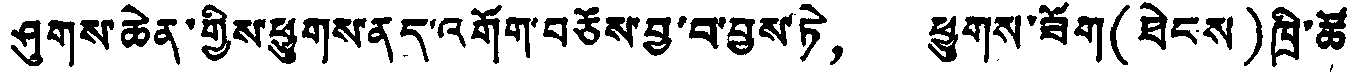ཤུགས་ཆེན་གྱིས་ཕྱུགས་ནད་འགོག་བཅོས་བྱ་བ་བྱས་ཏེ， ཕྱུགས་ཟོག (ཐེངས) ཁྲི་ཚོ་
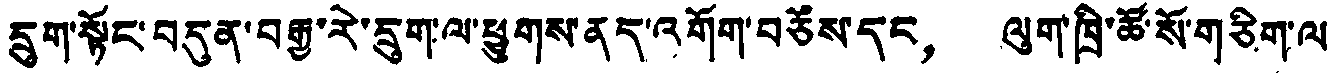དྲུག་སྟོང་བདུན་བརྒྱ་རེ་དྲུག་ལ་ཕྱུགས་ནད་འགོག་བཅོས་དང， ལུག་ཁྲི་ཚོ་སོ་གཅིག་ལ་
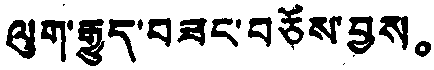ལུག་རྒྱུད་བཟང་བཅོས་བྱས。
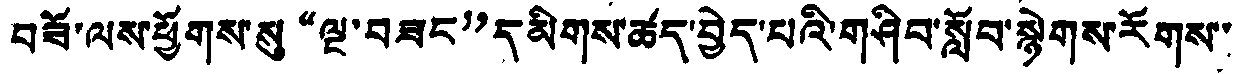བཟོ་ལས་ཕྱོགས་སུ“ལྔ་བཟང”དམིགས་ཚད་བྱེད་པའི་གཤིབ་སློབ་སྙེགས་རོགས་་
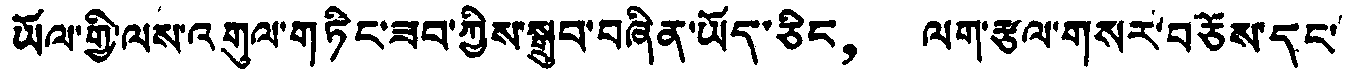ཡོལ་གྱི་ལས་འགུལ་གཏིང་ཟབ་ཀྱིས་སྒྲུབ་བཞིན་ཡོད་ཅིང， ལག་རྩལ་གསར་བཅོས་དང་
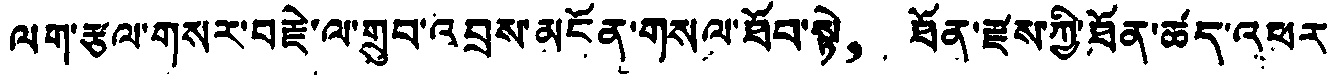ལག་རྩལ་གསར་བརྗེ་ལ་གྲུབ་འབྲས་མངོན་གསལ་ཐོབ་སྟེ， ཐོན་རྫས་ཀྱི་ཐོན་ཚད་འཕར
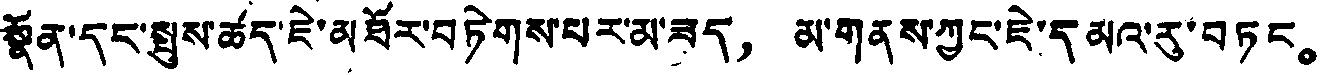སྣོན་དང་སྤུས་ཚད་ཇེ་མཐོར་བཏེགས་པར་མ་ཟད， མ་གནས་ཀྱང་ཇེ་དམའ་རུ་བཏང。
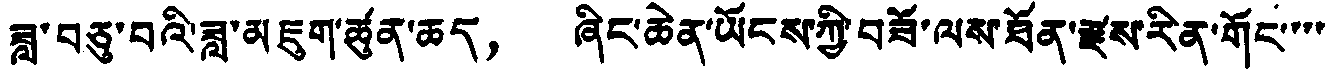ཟླ་བཅུ་བའི་ཟླ་མཇུག་ཚུན་ཆད， ཞིང་ཆེན་ཡོངས་ཀྱི་བཟོ་ལས་ཐོན་རྫས་རིན་གོང་་་་
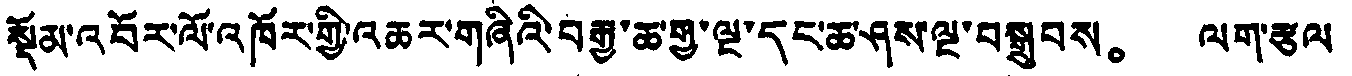སྡོམ་འབོར་ལོ་འཁོར་གྱི་འཆར་གཞིའི་བརྒྱ་ཆ་གྱ་ལྔ་དང་ཆ་ཤས་ལྔ་བསྒྲུབས。 ལག་རྩལ
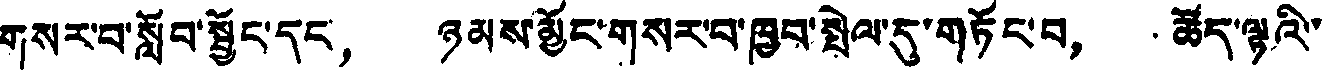གསར་བ་སློབ་སྦྱོང་དང， ཉམས་མྱོང་གསར་བ་ཁྱབ་སྤེལ་དུ་གཏོང་བ， ཚོད་ལྟའི་་
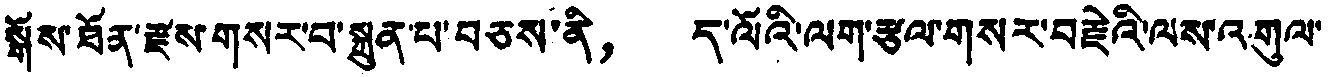སྒོས་ཐོན་རྫས་གསར་བ་སྐྲུན་པ་བཅས་ནི， ད་ལོའི་ལག་རྩལ་གསར་བརྗེའི་ལས་འགུལ་
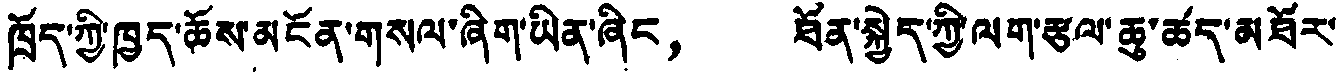ཁྲོད་ཀྱི་ཁྱད་ཆོས་མངོན་གསལ་ཞིག་ཡིན་ཞིང， ཐོན་སྐྱེད་ཀྱི་ལག་རྩལ་ཆུ་ཚད་མཐོར་
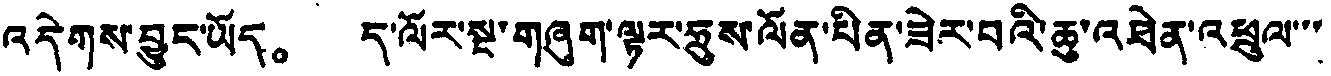འདེགས་བྱུང་ཡོད。 ད་ལོར་སྔ་གཞུག་ལྟར་ཧུས་ལོན་པིན་ཟེར་བའི་ཆུ་འཐེན་འཕྲུལ་་་
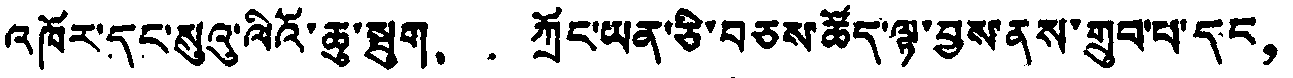འཁོར་དང་སུའུ་ལིའོ་ཆུ་སྦུག， ཀྲོང་ཡན་ཅི་བཅས་ཚོད་ལྟ་བྱས་ནས་གྲུབ་པ་དང，
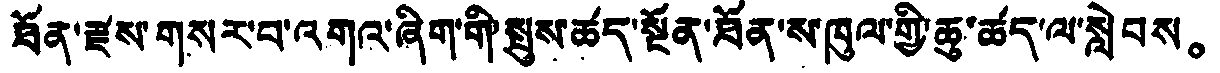ཐོན་རྫས་གསར་བ་འགའ་ཞིག་གི་སྤུས་ཚད་སྔོན་ཐོན་ས་ཁུལ་གྱི་ཆུ་ཚད་ལ་སླེབས。
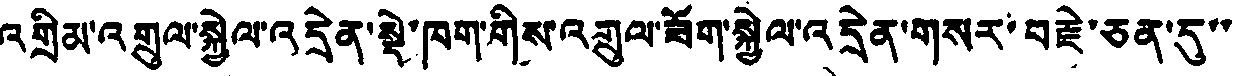འགྲིམ་འགྲུལ་སྐྱེལ་འདྲེན་སྡེ་ཁག་གིས་འགྲུལ་ཟོག་སྐྱེལ་འདྲེན་གསར་བརྗེ་ཅན་དུ་་
